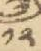༡༢
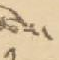ཚེས་
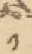༡
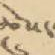ཚེས་
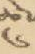༦
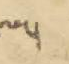ལ་།
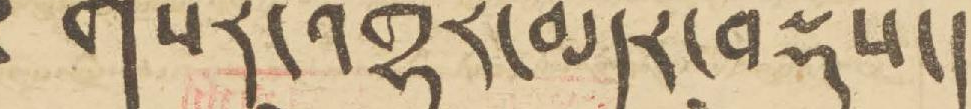༅ གསར་འགྱུར་མདོར་བསྡུད་།
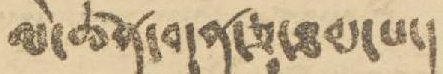ལེ་ཚན་བདུན་ཅུ་ཐམ་པ་།
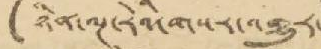(ཉིན་ལྔ་རེའི་གསར་འགྱུར་)
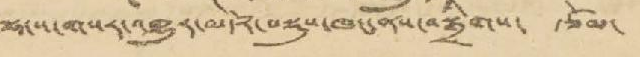ལྷ་ས་གསར་འགྱུར་མདོར་བསྡུས་ཁང་ནས་བསྒྲིགས་ རྩོམ་
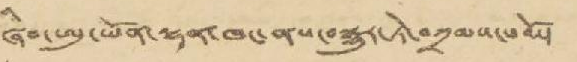ཞིབ་ཨུ་ཡོན་ལྷན་ཁང་ནས་བསྒྱུར་ཏེ་བཀྲམས་པའོ་།
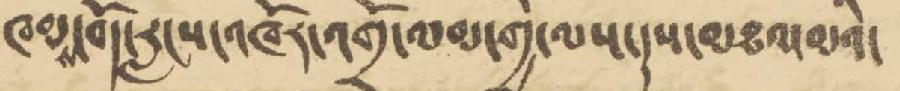ཁམས་བོད་རླངས་འཁོར་འགྲོ་ལམ་གྱི་ལས་དུས་མཐའ་མའི་
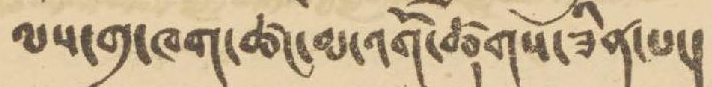ལས་གྲྭ་ཁག་ཚང་མ་འགོ་ཚུགས་ཟིན་པ་།
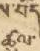ཚུལ་
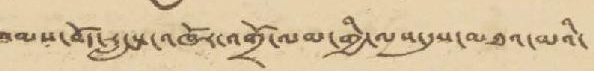ཁམས་བོད་རླངས་འཁོར་འགྲོ་ལམ་གྱི་ལས་དུས་མཐའ་མའི་
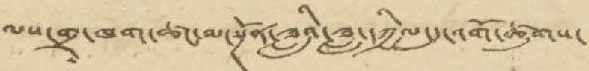ལས་གྲྭ་ཁག་ཚང་མ་སྔོན་ཟླའི་ཟླ་དཀྱིལ་དུ་འགོ་ཚུགས་
